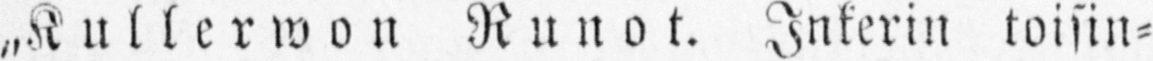„Kullerwon Runot. Inkerin toisin-
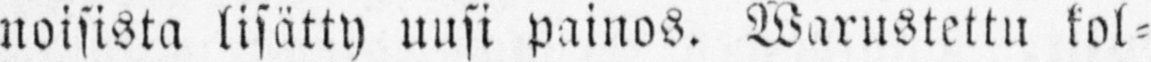noisista lisätty uusi painos. Warustettu kol-
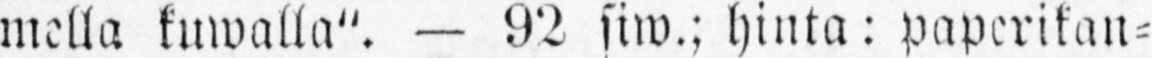mella kuwalla". — 92 siw.; hinta: paperikan-
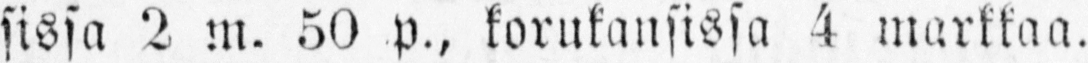sissa 2 m. 50 p., korukansissa 4 markkaa.
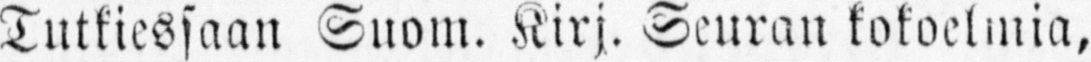Tutkiessaan Suom. Kirj. Seuran kokoelmia,
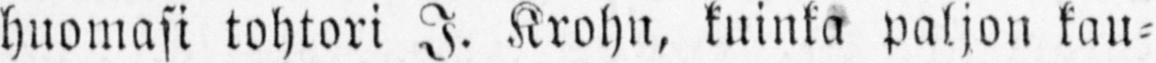huomasi tohtori I. Krohn, kuinka paljon kau-
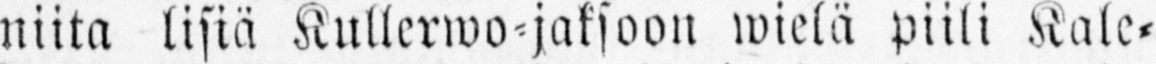niita lisiä Kullerwo-jaksoon wielä piili Kale-
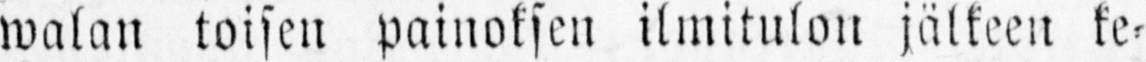walan toisen painoksen ilmitulon jälkeen ke-
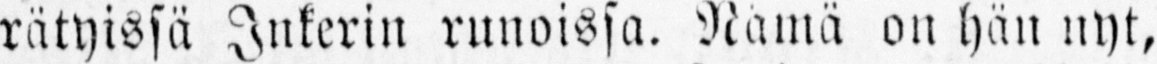rätyissä Inkerin runoissa. Nämä on hän nyt,
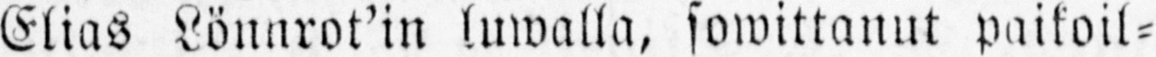Elias Lönnrot'in luwalla, sowittanut paikoil-
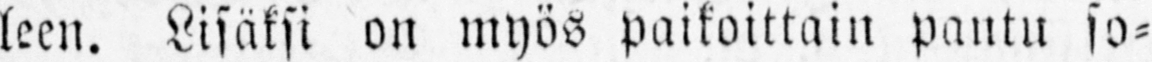leen. Lisäksi on myös paikoittain pantu so-
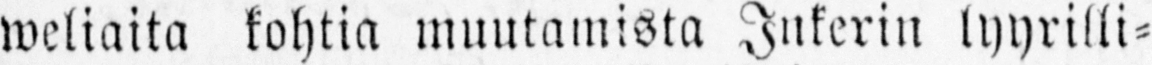weliaita kohtia muutamista Inkerin lyyrilli-
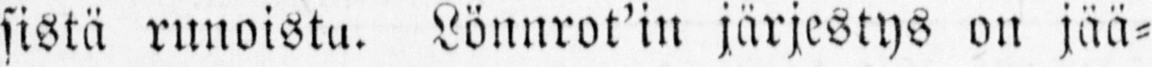sistä runoista. Lönnrot'in järjestys on jää-
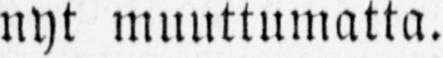nyt muuttumatta.
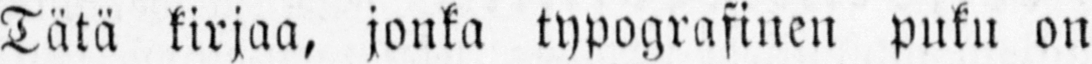Tätä kirjaa, jonka typografinen puku on
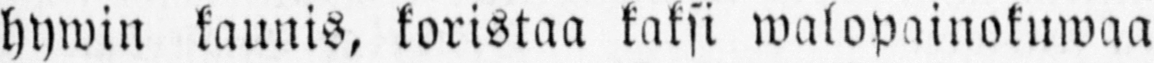hywin kaunis, koristaa kaksi walopainokuwaa
